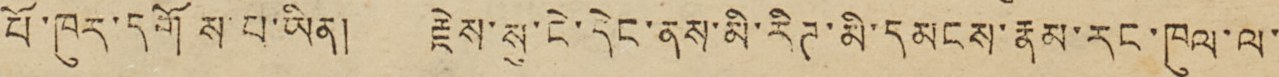པོ་ཁུར་དགོས་པ་ཡིན། རྗེས་སུ་ངེ་དེང་ནས་མི་རིཊ་མི་དམངས་རྣམ་རང་ཁུལ་ལ་
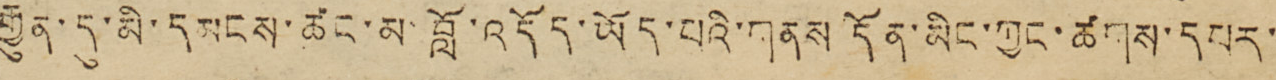རྒྱུན་དུ་མི་དམངས་ཚང་མ་བློ་འདོད་ཡོད་པའི་གནས དོན་མིང་ཀྱང་ཚགས་དཔར་
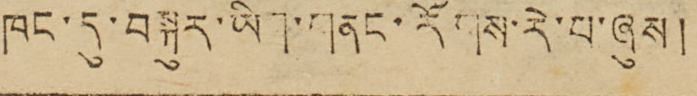ཁང་དུ་བསྐུར་ཡིག་གནང་རོགས་རེ་བ་ཞུས།
